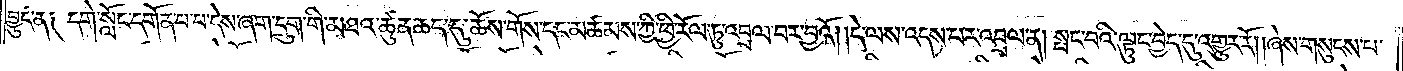བྱུང་ན༑ དགེ་སློང་དགོན་པ་པ་དེས་ཞག་དྲུག་གི་མཐའ་ཚུན་ཆད་དུ་ཆོས་གོས་དང་མཚམས་ཀྱི་ཕྱི་རོལ་ཏུ་འབྲལ་བར་བྱའོ། །དེ་ལས་འདས་པར་འབྲལ་ན། སྤང་བའི་ལྟུང་བྱེད་དུ་འགྱུར་རོ། །ཞེས་གསུངས་པ་
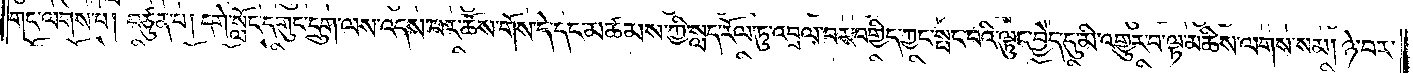གང་ལགས་པ། བཙུན་པ། དགེ་སློང་དགུང་དྲུག་ལས་འདས་པར་ཆོས་གོས་དེ་དང་མཚམས་ཀྱི་སླད་རོལ་ཏུ་འབྲལ་བར་བགྱིད་ཀྱང་སྤང་བའི་ལྟུང་བྱེད་དུ་མི་འགྱུར་བ་ལྟ་མཆིས་ལགས་སམ། ཉེ་བར་
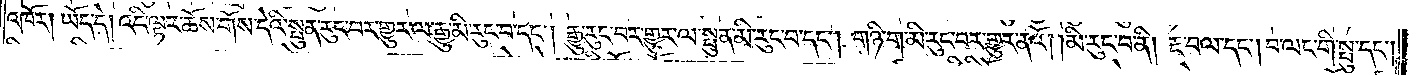འཁོར། ཡོད་དེ། འདི་ལྟར་ཆོས་གོས་དེའི་སྤུན་རུང་བར་གྱུར་ལ་རྒྱུ་མི་རུང་བ་དང༌། རྒྱུ་རུང་བར་གྱུར་ལ་སྤུན་མི་རུང་བ་དང༌། གཉི་ག་མི་རུང་བར་གྱུར་ནའོ། །མི་རུང་བ་ནི། རྔ་བལ་དང༌། བ་ལང་གི་སྤུ་དང༌།
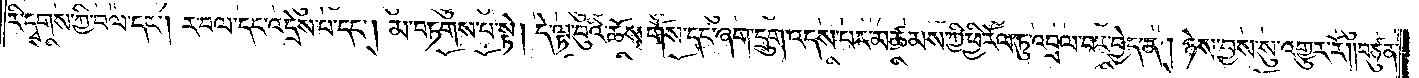རི་དྭགས་ཀྱི་བལ་དང༌། ར་བལ་དང་འདྲེས་པ་དང༌། མ་བཏགས་པ་སྟེ། དེ་ལྟ་བུའི་ཆོས་གོས་དང་ཞག་དྲུག་འདས་པར་མཚམས་ཀྱི་ཕྱི་རོལ་ཏུ་འབྲལ་བར་བྱེད་ན། ཉེས་བྱས་སུ་འགྱུར་རོ། །བཙུན་
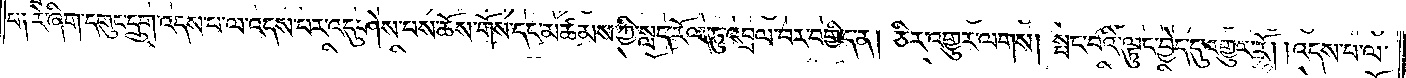བ༑ རེ་ཞིག་དགུང་དྲུག་འདས་པ་ལ་འདས་པར་འདུ་ཤེས་པས་ཆོས་གོས་དང་མཚམས་ཀྱི་སླད་རོལ་ཏུ་འབྲལ་བར་བགྱིད་ན། ཅིར་འགྱུར་ལགས། སྤང་བའི་ལྟུང་བྱེད་དུ་འགྱུར་རོ། །འདས་པ་ལ་
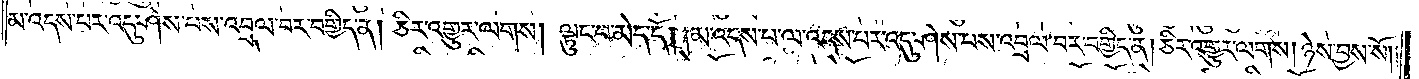མ་འདས་པར་འདུ་ཤེས་པས་འབྲལ་བར་བགྱིད་ན། ཅིར་འགྱུར་ལགས། ལྟུང་བ་མེད་དོ། །མ་འདས་པ་ལ་འདས་པར་འདུ་ཤེས་པས་འབྲལ་བར་བགྱིད་ན། ཅིར་འགྱུར་ལགས། ཉེས་བྱས་སོ། །
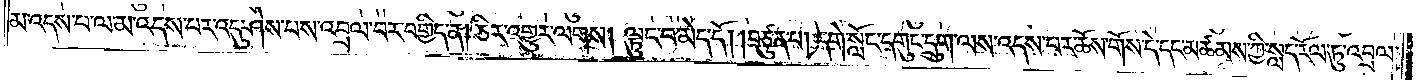མ་འདས་པ་ལ་མ་འདས་པར་འདུ་ཤེས་པས་འབྲལ་བར་བགྱིད་ན། ཅིར་འགྱུར་ལགས། ལྟུང་བ་མེད་དོ། །བཙུན་པ། དགེ་སློང་དགུང་དྲུག་ལས་འདས་པར་ཆོས་གོས་དེ་དང་མཚམས་ཀྱི་སླད་རོལ་ཏུ་འབྲལ་
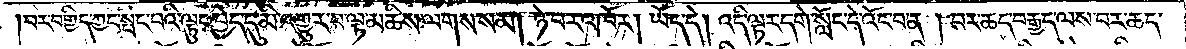།བར་བགྱིད་ཀྱང་སྤང་བའི་ལྟུང་བྱེད་དུ་མི་འགྱུར་བ་ལྟ་མཆིས་ལགས་སམ། ཉེ་བར་འཁོར། ཡོད་དེ། འདི་ལྟར་དགེ་སློང་དེ་འོང་བ་ན། བར་ཆད་བརྒྱད་ལས་བར་ཆད་
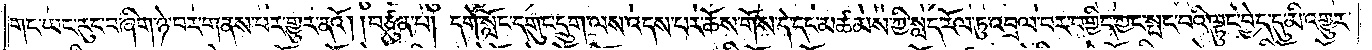གང་ཡང་རུང་བ་ཞིག་ཉེ་བར་གནས་པར་གྱུར་ནའོ། །བཙུན་པ། དགེ་སློང་དགུང་དྲུག་ལས་འདས་པར་ཆོས་གོས་དེ་དང་མཚམས་ཀྱི་སླད་རོལ་ཏུ་འབྲལ་བར་བགྱིད་ཀྱང་སྤང་བའི་ལྟུང་བྱེད་དུ་མི་འགྱུར་
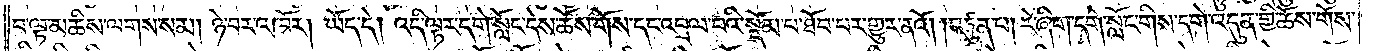བ་ལྟ་མཆིས་ལགས་སམ། ཉེ་བར་འཁོར། ཡོད་དེ། འདི་ལྟར་དགེ་སློང་དེས་ཆོས་གོས་དང་འབྲལ་བའི་སྡོམ་པ་ཐོབ་པར་གྱུར་ནའོ། །བཙུན་པ། རེ་ཞིག་དགེ་སློང་གིས་དགེ་འདུན་གྱི་ཆོས་གོས་
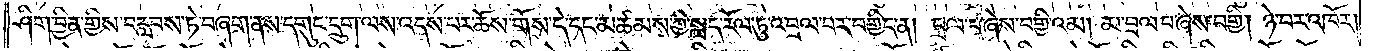ཤིག་བྱིན་གྱིས་བརླབས་ཏེ་བཞག་ནས་དགུང་དྲུག་ལས་འདས་པར་ཆོས་གོས་དེ་དང་མཚམས་ཀྱི་སླད་རོལ་ཏུ་འབྲལ་བར་བགྱིད་ན། བྲལ་བར་བགྱིད་ན། བྲལ་བ་ཞེས་བགྱིའམ། མ་བྲལ་བ་ཞེས་བགྱི། ཉེ་བར་འཁོར་
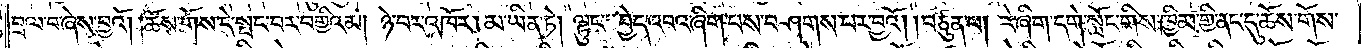བྲལ་བ་ཞེས་བྱའོ། །ཆོས་གོས་དེ་སྤང་བར་བགྱིའམ། ཉེ་བར་འཁོར། མ་ཡིན་ཏེ། ལྟུང་བྱེད་འབའ་ཞིག་པས་བཤགས་པར་བྱའོ། །བཙུན་པ། རེ་ཞིག་དགེ་སློང་གིས་ཁྱིམ་གྱི་ནང་དུ་ཆོས་གོས་
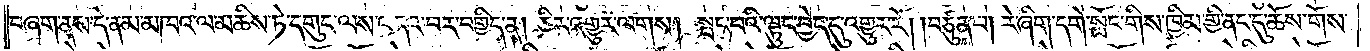བཞག་ནས་དེ་ནམ་མཁའ་ལ་མཆིས་ཏེ་དགུང་ལས་འདའ་བར་བགྱིད་ན། ཅིར་འགྱུར་ལགས། སྤང་བའི་ལྟུང་བྱེད་དུ་འགྱུར་རོ། །བཙུན་པ། རེ་ཞིག་དགེ་སློང་གིས་ཁྱིམ་གྱི་ནང་དུ་ཆོས་གོས་
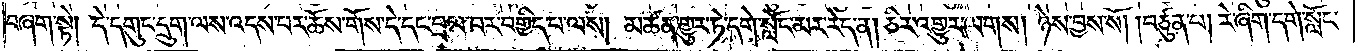བཞག་སྟེ། དེ་དགུང་དྲུག་ལས་འདས་པར་ཆོས་གོས་དེ་དང་བྲལ་བར་བགྱིད་པ་ལས། མཚན་གྱུར་ཏེ་དགེ་སློང་མར་རེད་ན། ཅིར་འགྱུར་ལགས། ཉེས་བྱས་སོ། །བཙུན་པ། རེ་ཞིག་དགེ་སློང་
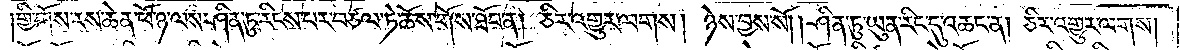།གྱི་གོས་རས་ཆེན་ཕོ་ཉ་ལས་ཤིན་ཏུ་རིངས་པར་བཙལ་ཏེ་ཆོས་གོས་ཐོབ་ན། ཅིར་འགྱུར་ལགས། ཉེས་བྱས་སོ། །ཤིན་ཏུ་ཡུན་རིང་དུ་འཆང་ན། ཅིར་འགྱུར་ལགས།
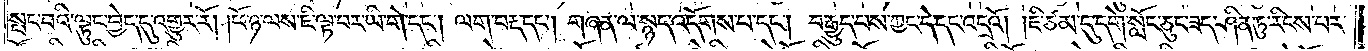སྤང་བའི་ལྟུང་བྱེད་དུ་འགྱུར་རོ། །ཕོ་ཉ་ལས་ཇི་ལྟ་བར་ཡི་གེ་དང༌། ལག་བརྡ་དང༌། གཞན་ལ་སྙད་འདོགས་པ་དང༌། བརྒྱུད་པས་ཀྱང་དེ་དང་འདྲའོ། །ཇི་ཙམ་དུ་དགེ་སློང་ཅུང་ཟད་ཤིན་ཏུ་རིངས་པར་
